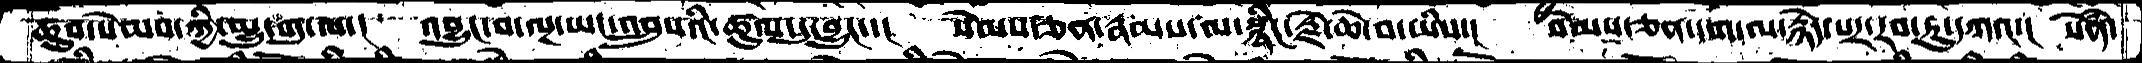ཆུབ་སེམས་ཀྱི་མྱུ་གུ་ལ་།  འབྱུང་བ་ལྔ་ཡང་འབྲུསའི་ཚུལ་དུ་བྱུང་་།  སེམས་ཅན་རྣམས་ལ་སྙིང་རྗེ་ཆེ་བ་་ཡིས་།  སེམས་ཅན་དག་ལ་རྙེད་པར་རབ་ཏུ་དཀའ་།  སེནཾ་
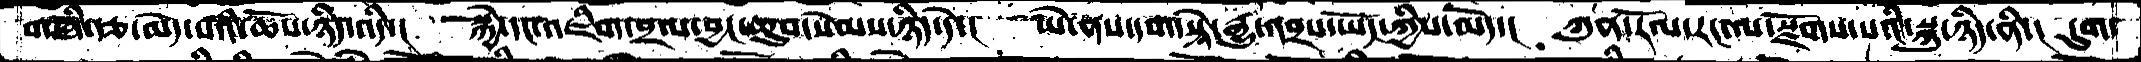གཞི་རྩ་མེད་པའི་ཆོས་ཉིད་འདི་།  སྐྱེ་དང་འཇིག་བྲལ་བྱང་ཆུབ་སེམས་ཉིད་དེ་།  ཡེ་ནས་དག་སྟེ་རྒྱུ་འབྲས་ཡོང་ཀྱིས་མོད་།  ཀུན་རོལ་རང་ལ་སྫོགས་པའི་སྐུ་ཉིད་ནི་།  དུག་
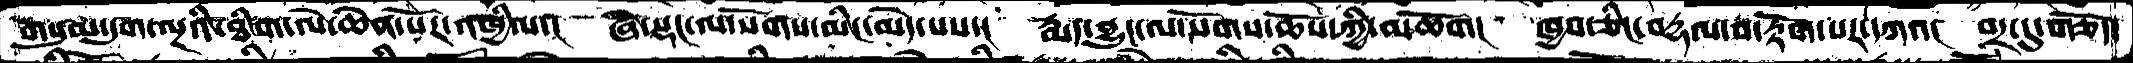གསུམ་དུག་ལྔའི་ཐིག་ལེ་ཆེན་པོར་འཁྱིལ་།  ཞེ་སྡང་ལ་སོགས་མིང་མེད་པས་།  རྨད་བྱུང་ལ་སོགས་ཆོས་ཀྱི་མཆོག།  ཁྱབ་ཅིང་བརྡལ་བ་རྟོག་པར་དཀའ།  བར་དུ་གཅོད་
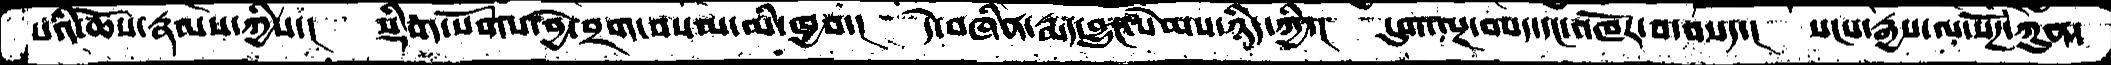པའི་ཆོས་རྣམས་ཀྱིས་།  སྡིག་སོགས་བྱེ་བྲག་བསམ་མི་ཁྱབ་།  དེ་བཞིན་རྨད་བྱུང་སེམས་ཉིད་ཀྱི་།  དུག་ལྔ་བསད་དང་འཁོར་བ་བསད་།  སངས་རྒྱས་ལ་སོཌ་ཀུན་
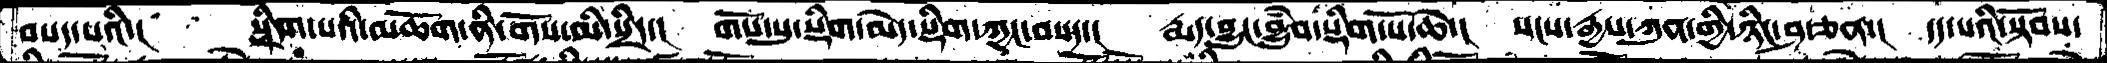བསད་པའི་།  སྡིག་པའི་མཆོག་ནི་གོས་མི་སྲིད་།  གོས་སུ་སྡིག་མེད་སྡིག་ཀྱང་བསད་།  རྨད་བྱུང་བྱུཾབ་སྡིག་པོ་ཆེ་།  སངས་རྒྱས་ཀུན་གྱི་ཉིང་ཤ་ཅན་།  དད་པའི་སྟོབས་
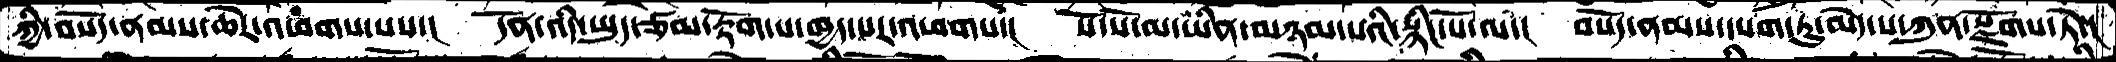ཀྱི་བསོད་ནམས་ཆེར་འཕགས་པས་།  དོན་འདི་ཡུད་ཙམ་རྟོག་པ་ཁྱད་པར་འཕགས་།  སོ་སོ་མ་ཡིན་མཉམ་པའི་སྙིང་པོ་ལ་།  བསོད་ནམས་དཔག་ཏུ་མེད་པ་ཀུན་སྫོགས་ཏེ་།
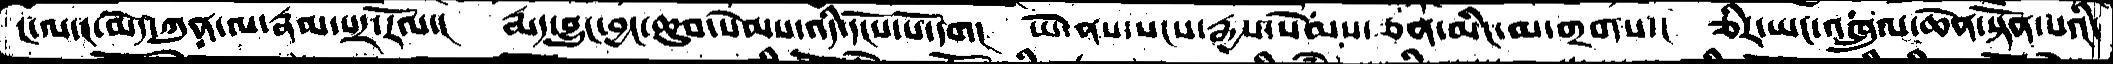ང་ལ་ང་མེད་ཀུན་ལ་རྣམ་པར་རོལ་།  རྨད་བྱུང་བྱང་ཆུབ་སེམས་འདི་དངོས་པོ་དག།  ཡེ་ནས་སངས་རྒྱས་སེམས་ཅན་མིང་མ་གྲགས་།  ཅིར་ཡང་འཁྲུལ་ཆེན་སྟོན་པའི་
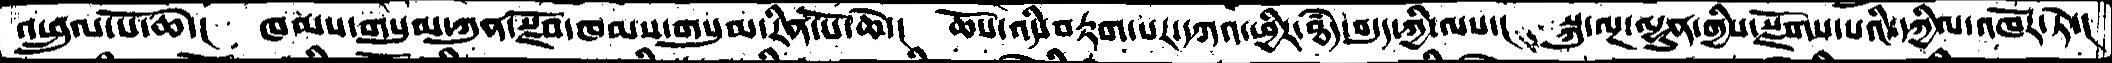འཕྲུལ་པོ་ཆེ་།  ཁམས་གསུམ་ཀུན་་སྫོབ་ཁམས་གསུམ་རིན་པོ་ཆེ་།  ཆོས་འདི་བརྟག་པར་དཀའ་ཕྱིར་ཐཾད་བདུད་ཀྱི་ལས་།  སྐུ་ལྔ་ལྷུན་གྱིས་སྫོགས་པའི་དཀྱིལ་འཁོར་ཏེ་།
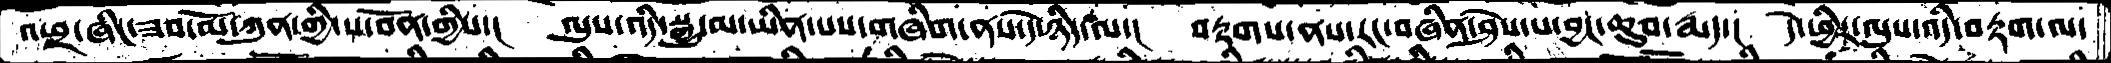འཕྲ་ཞིང་ཟབ་་མོ་ཀུན་གྱི་ས་བོན་གྱིས་།  ལུས་འདི་སྒྱུ་མ་ཡིན་པས་གཞིག་ནས་དེ་ཉིད་ལ་།  བརྟགས་ནས་རང་བཞིན་ཤེས་པ་བྱང་ཆུབ་རྨད་།  དེ་ཕྱིར་ལུས་འདི་བརྟག་ལ་
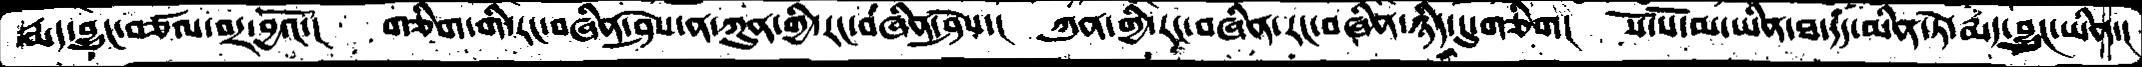རྨད་བྱུང་བཙལ་བར་བྱའོ་།  གཅིག་གི་རང་བཞིན་ཤེས་ན་ཀུན་གྱི་རང་བཞིན་ཤེས་།  ཀུན་གྱི་རང་བཞིན་རང་བཞིན་ཉིད་དུ་གཅིག།  སོ་སོ་མ་ཡིན་ཐ་དད་མིན་ཏེ་རྨད་བྱུང་ཡིན་།
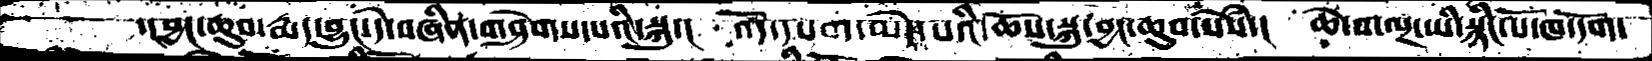་།བྱང་ཆུབ་རྨད་བྱུང་དེ་བཞིན་གཤེགས་པའི་སྐུ་།  འོད་དཔག་མེད་པའིཆོས་སྐུ་བྱང་ཆུབ་སེསཾ་།  ཆེ་བ་ལྔ་ཡི་སྙིང་པོ་ཁ་དོག་
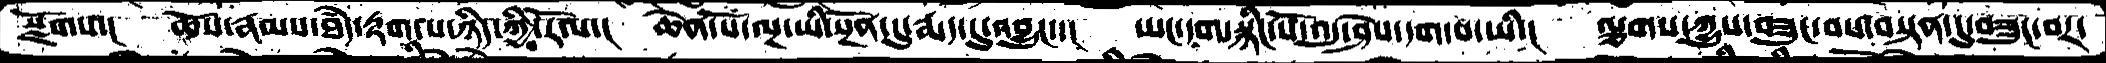སྫོགས་།  ཆོས་རྣམས་ཐཾད་རྟག་པ་ཉིད་ཀྱི་རོལ་།  ཆོས་པོ་ལྔ་ཡི་སྔོན་དུ་རྨད་དུ་འབྱུང་་།  ཡང་དག་སྙིང་པོ་འདུ་ཤེས་དག་པ་ཡི་།  ལྕགས་ཀྱུས་བཟུང་བས་བསྟན་དུ་བཟུང་བར་
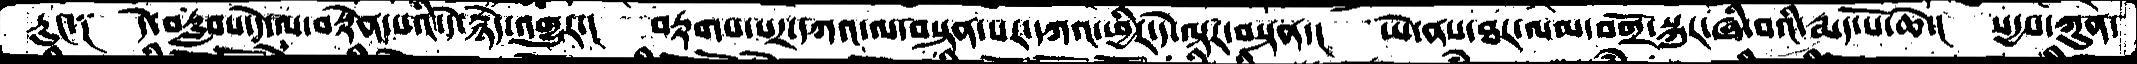རུང་༑  དེ་བརླབས་དེ་ལ་བརྟེན་པའི་དེ་རྙེད་འགྱུར་།  བརྟགས་པར་དཀའ་ལ་བསྟན་པར་དཀའ་ཕྱིར་དེ་ལྟར་བསྟན་།  ཡེ་ནས་ཐར་ལམ་བགྲོ་སྐུར་ཞི་བའི་རྨད་པོ་ཆེ་།  སདྱས་ཀུན་
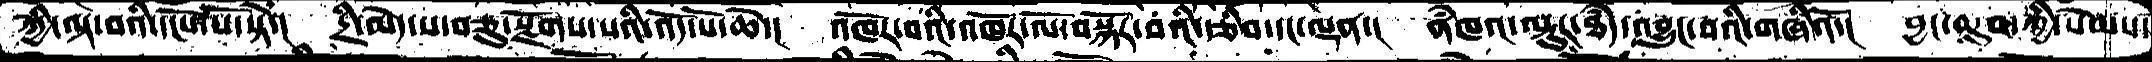ཀྱི་ལྟེ་བའི་དངོས་པོ་སྟེ་།  དྲི་མེད་ས་བཅུ་སྫོགས་པའི་འོད་པོ་ཆེ་།  འཁོར་བའི་འཁོར་ལོ་བསྐོར་བའི་རྩིབ་དང་ལྡན་།  ནཾཁའ་ལྟུར་ཐཾད་འབྱུང་བའི་གཞིའོ་།  བྱང་ཆུབ་ཀྱི་སེམས་
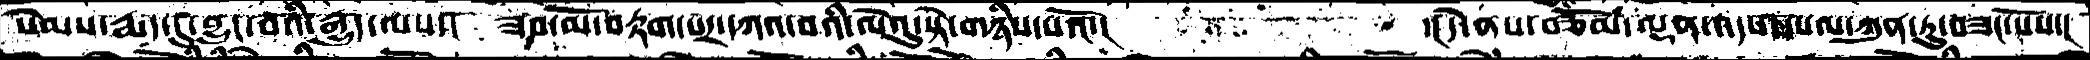སེམས་རྨད་དུ་བྱུང་བའི་རྒྱུད་ལས་།  ཟབ་མོ་བརྟག་པར་དཀའ་བའི་ལེའུ་སྟེ་གཉིས་པའོ་།         ་། དེ་ནས་བཅོམ་ལྡན་འདས་དཔལ་ཀུན་ཏུ་བཟང་པོས་།
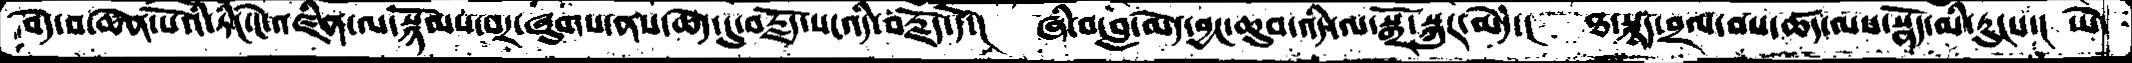བདེ་བ་ཆེན་པོའི་ཏིང་ངེ་འཛིན་ལ་སྙོམས་པར་ཞུགས་ནས་ཆེད་དུ་བརྗོད་པ་འདི་བརྗོད་དོ་།  ཞི་བ་བླ་མེད་བྱང་ཆུབ་འདི་ལ་སྒྲོ་སྐུར་མེད་།  ཐ་སྙད་བྲལ་བས་ཚད་ལས་སྣོད་མི་རུངས་།  ཡེ་
